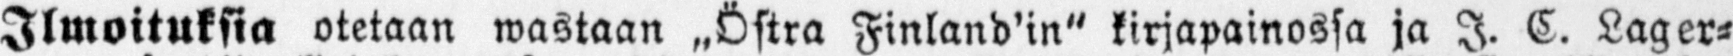Ilmoituksia otetaan wastaan „Östra Finland'in" kirjapainossa ja J. C. Lager-
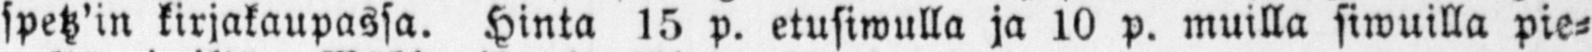spetz'in kirjakaupassa. Hinta 15 p. etusiwulla ja 10 p. muilla siwuilla pie-
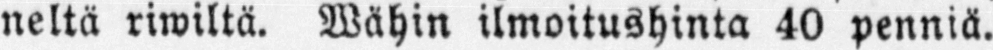neltä riwiltä. Wähin ilmoitushinta 40 penniä.
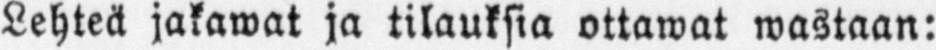Lehteä jakawat ja tilauksia ottawat wastaan:
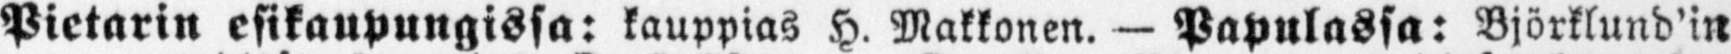Pietarin esikaupungissa: kauppias H. Makkonen. — Papulassa: Björklund'in
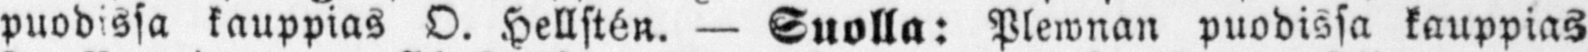puodissa kauppias O. Hellstén. — Suolla: Plewnan puodissa kauppias
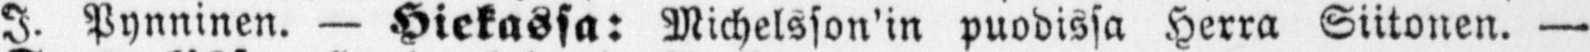J. Pynninen. — Hiekassa: Michelsson'in puodissa Herra Siitonen. —
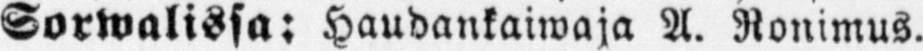Sorwalissa: Haudankaiwaja A. Ronimus.
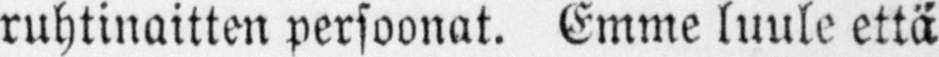ruhtinaitten persoonat. Emme luule että
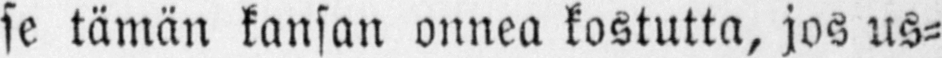se tämän kansan onnea kostutta, jos us-
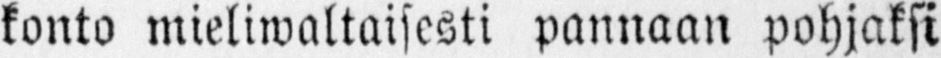konto mieliwaltaisesti pannaan pohjaksi
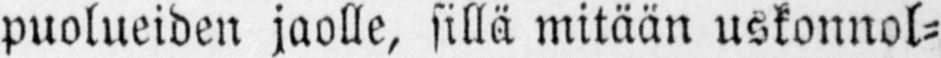puolueiden jaolle, sillä mitään uskonnol-
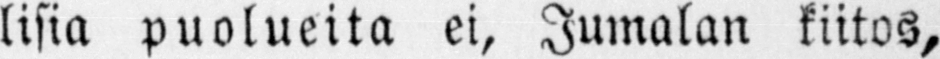lisia puolueita ei, Jumalan kiitos,
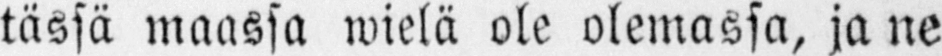tässä maassa wielä ole olemassa, ja ne
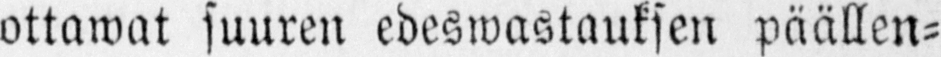ottawat suuren edeswastauksen päällen-
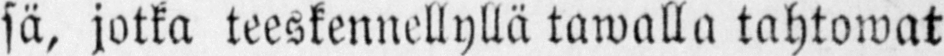sä, jotka teeskennellyllä tawalla tahtowat
